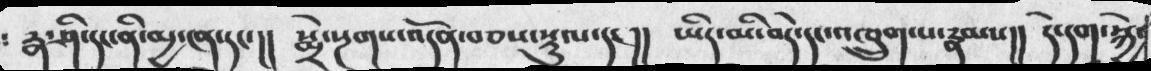༴ རྒ་ཤི་དང་ནི་མྱ་ངན་དང་།།  སྨྲེ་རྔགས་འདོན་བཅས་སྡུལ་དང།།  ཡིད་མི་བདེ་དང་འཁྲུག་པ་རྣམས།། དེ་དག་སྐྱེ་
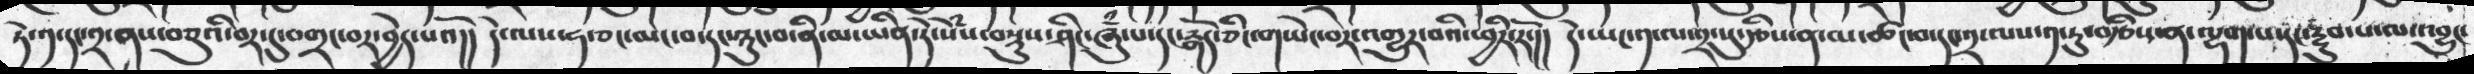ཏེ་༡་དང་༢་ནས་བཅུའི་བར་དུ་བགྲང་བར་བྱེད་པའོ།།   དེ་ལས་ཧ་ཅང་མང་བ་དང་ཉུང་བ་ནི་མ་ཡིན་དེ་སེཾས་བསྡུས་ཤིང་ཞུཾ་པ་དང་རྒོད་ཅིང་གཡེང་བར་འགྱུར་བའི་ཕྱིར་རོ་།།   དེ་ཡང་༡་ལ་༢་དུ་རྩིས་ན་མ་ཚང་བ་དང་༢་ལས་༡་ཏུ་བརྩིས་ན་ལྷག་པ་དང་རྔུབ་པ་ལ་འབྱུང་
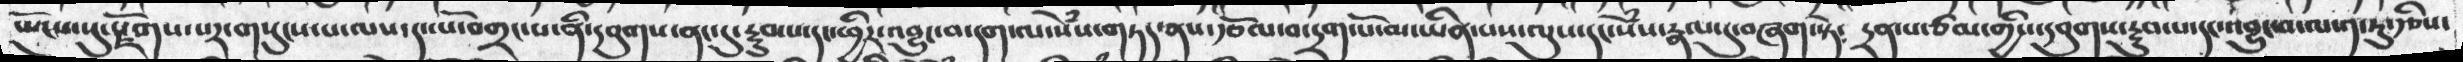ཡོངས་སུ་རྫོགས་པར་གསུངས་པ་ལས་དང་པོ་བགྲང་པ་ནི་དབུགས་ནང་དུ་རྔུབ་པ་དང་ཕྱིར་འབྱུང་བ་དག་ལ་སེཾས་གཏད་ནས་རྩོལ་བ་དྲག་པོ་མ་ཡིན་པས་ལུས་དང་སེཾས་རྣལ་དུ་བཞག་སྟེ༴  དྲན་པ་ཙམ་གྱིས་དབུགས་རྔུབ་པ་དང་འབྱུང་བ་ལ་༡་ཏུ་རྩིས་
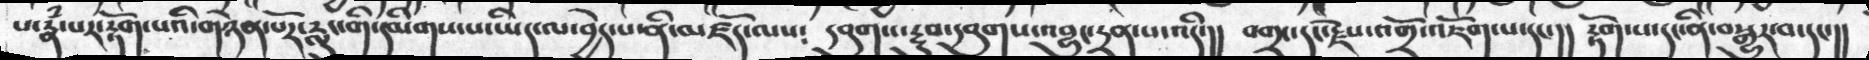པ་རྣཾ་པར་རྟོག་པའི་གཉེན་པོར་རླུང་གི་དམིགས་པ་ཡིད་ལ་བྱེད་པ་ནི་མཛོད་ལས༴  དབུགས་་རྔུབ་དབུགས་འབྱུང་དྲན་པ་འདི་།།  བགྲང་དང་རྫེས་འགྲོ་འཇོག་པ་དང་།།  རྟོག་པ་དང་ནི་བསྒྱུར་བ་དང་།།
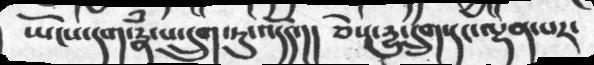ཡོངས་དག་རྣཾ་པ་དྲུག་ཏུ་འདོད་།།   ཅེས་དྱུ་དྲུག་དང་ལྡན་པར་
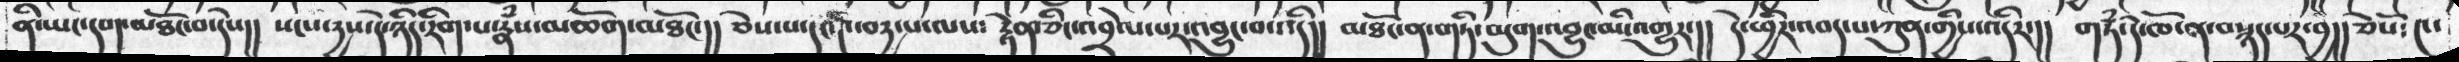ནི་ཡང་དག་མཐོང་བ་དེས།།   སངས་དྱས་དེ་ཉིད་རིག་པ་རྣྃས་མཆོག་མཐོང་།།  ཅེས་པ་དང་༤་བརྱ་པ་ལས༴  རྟེན་ཅིང་འབྲེལ་པར་འབྱུང་བ་འདི།།  མཐོང་ན་གཏི་མུག་འབྱུང་མི་འགྱུར་།།    དེ་ཕྱིར་འབད་པ་ཀུན་གྱིས་འདིར་།།   གཏྃ་དེ་ཁོ་ན་བསྙད་པར་བྱ།།   ཅེསོ༴ ༤་
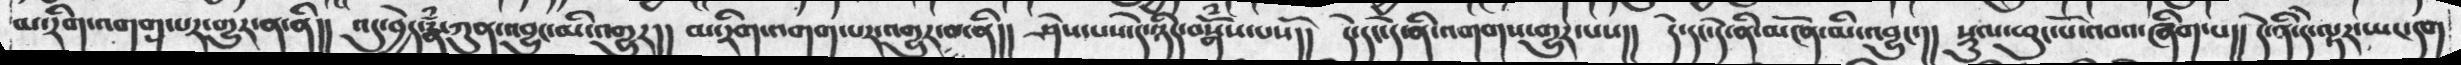མ་རིག་འགག་པར་གྱུར་ན་ནི།།    འདུ་བྱེད་རྣྃ་ཀུན་འབྱུང་མི་འགྱུར།།   མ་རིག་འགག་པར་འགྱུར་བ་ནི།།  ཤེས་པས་དེ་ཉིད་བསྒོྃས་པསོ།།   དེ་དང་དེ་ནི་འགགས་གྱུར་པས།།   དེ་དང་དེ་ནི་མངོན་མི་འབྱུང་།།  སྡུལ་ཕུང་པོ་འབའ་ཞིག་པ།།  དེ་ནི་དེ་ལྟར་ཡང་དག
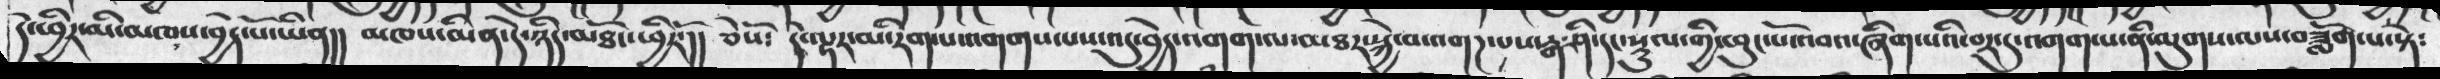དེ་ཕྱིར་མི་མཁས་བྱེད་པོ་ཡིན།།  མཁས་མིན་དེ་ཉིད་མཐོང་ཕྱིརོ་།།   ཅེསོ༴  དེ་ལྟར་མ་རིགས་འགགས་པས་འདུ་བྱེད་འགག་ལ་མཐར་སྐྱེ་བ་འགཌ་པས་རྒ་ཤི་དང་སྡུལ་གྱི་ཕུང་པོ་འབའ་ཞིག་པའི་བར་དུ་འགག་པ་ནི་ལུགས་ལས་བཟློག་པ་སྟེ༴
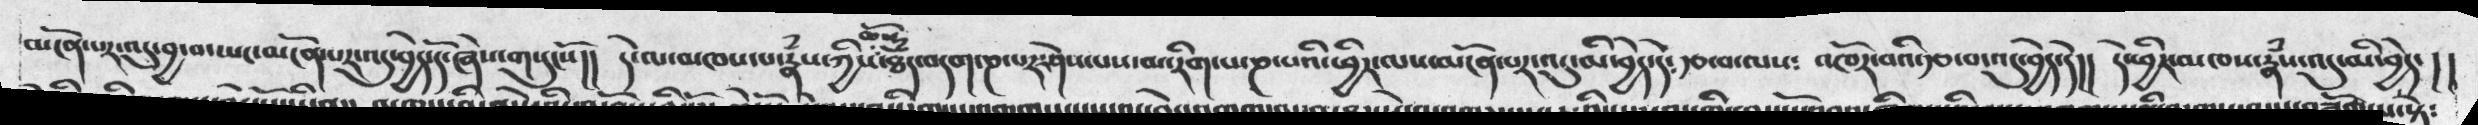མངོན་པར་འདུ་བྱ་བ་ཡང་མངོན་པར་འདུ་བྱེད་དོ་ཞེས་གསུངསོ།།  དེ་ལ་མཁས་པ་རྣཾས་ཀྱིས་ཆོས་ཐཾད་བདག་ཎ་པར་ཤེས་པས་མ་རིག་པ་ཎ་པའི་ཕྱིར་ལས་མངོན་པར་འདུ་བྱེད་མི་བྱེད་དེ༴  རྩ་བ་ལས༴  འཁོར་བའི་རྩ་བ་འདུ་བྱེད་དེ།།   དེ་ཕྱིར་མཁས་རྣཾས་འདུ་མི་བྱེད་
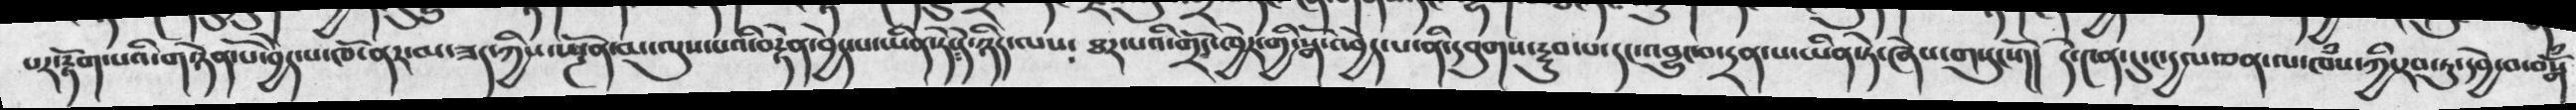པར་རྟོག་པའི་གཉེན་པོ་བྱེད་པ་ཁོ་ནར་མ་ཟད་ཀྱིས་ཡྟོན་མ་ལུས་པའི་བརྟེན་བྱེད་པ་ཡིན་ཏེ་དེ་ཉིད་ལས༴  ཐར་པའི་གྲོང་ཁྱེར་གྱི་སྒོ་འབྱེད་པ་ནི་དབུགས་རྔུབ་པ་དང་འབྱུང་བ་དྲན་པ་ཡིན་ཏེ་ཞེས་གསུངསོ།།  དེ་༤ན་དུ་ང་དྱལ་ཅན་ལ་ཁཾས་ཀྱི་རབ་ཏུ་དབྱེ་བ་བསྒོཾ
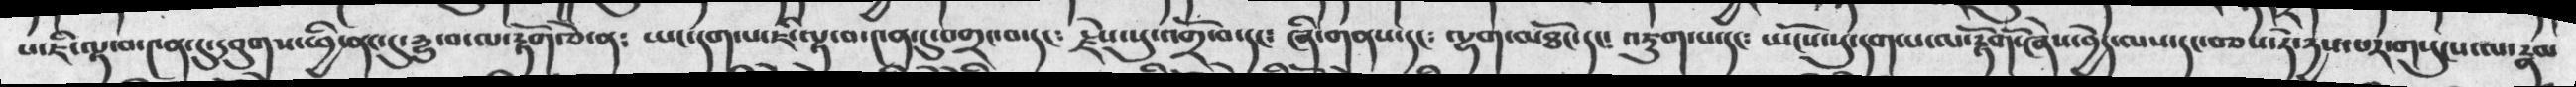པ་ཇི་ལྟ་བ་༤ན་དུ་དབུགས་ཕྱི་ནང་ད་དྱུ་བ་ལ་རྟོག་ཅེ་ན༴  ཡང་དག་པ་ཇི་ལྟ་བ་༤ན་དུ་བགྲང་བ་དང༴ རྗེས་སུ་་འགྲོ་བ་དང༴ ཞི་གནས་དང༴ ལྷག་མཐོང་དང༴ འཇུག་པ་དང༴ ཡོངས་སུ་དག་པ་མ་རྟོགོ་ཞེས་བྱེད་ལས་དང་བཅས་ཏེ་དྱས་པར་གསུངས་ལ་རྣམ
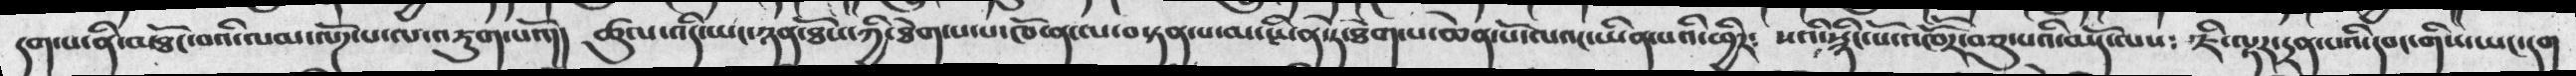དག་པ་ནི་མཐོང་བའི་ལམ་ལོཌ་པ་ལ་འཇུག་པའོ།།  ཚུལ་འདི་ཡང་ཉན་ཐོས་ཀྱི་ཐེག་པ་པ་ཁོ་ན་ལ་བསྟན་པ་མ་ཡིན་ཏེ་ཐེག་པ་ཆེན་པོ་ལའང་ཡིན་པའི་ཕྱིར༴  སའི་སྙིང་པོ་འཁོར་བཅུ་པའི་བསྡོ་ལས༴  ཇི་ལྟར་དྲན་པའི་དབང་གིས་ཡང་དག
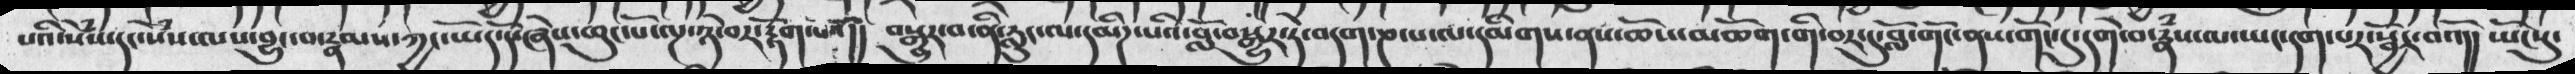པའི་སེཾས་དང་སེཾས་ལས་བྱུང་བ་རྣམས་ཀྱང་ཡོད་དོ་ཞེས་ཆུང་པོ་ལྔ་ཉེ་བར་རྟོག་པའོ།།  བསྒྱུར་བ་ནི་རླུང་ལ་དམིཌ་པའི་བློ་བསྒྱུར་དེ་བདག་ཎ་པ་ལ་དམིགས་ནས་ཆོས་མཆོག་གི་བར་དུ་བློ་གོང་ནད་གོང་དུ་དགེ་བ་རྣཾས་ལ་ཡང་དག་པར་སྦྱོར་བའོ།།  ཡོངསུ་
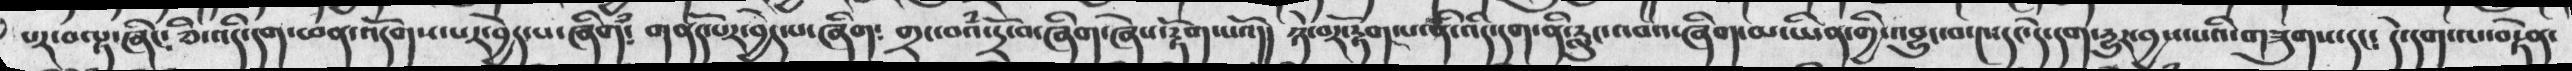པར་བ་ལྟ་ཞིང༴ཅི་འདི་དག་ཕན་འདོགས་པར་བྱེད་པ་ཞིག༴  གནོད་པར་བྱེད་པ་ཞིག༴   གྲང་བའཾ་དྲོ་བ་ཞིག་ཞེས་རྟོགཔའོ།།  ཉེ་བར་རྟོག་པ་ནི་འདི་དག་རླུང་འབའ་ཞིག་མ་ཡིན་གྱི་འབྱུང་བ་༤་དང་དེ་དག་དྱུར་བྱས་པའི་གཟུགས་དང༴   དེ་དག་ལ་བརྟེན་
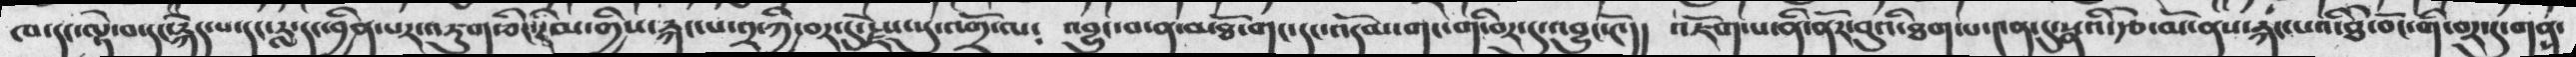ཁ་དང་ལྟེ་བ་དང་རྐེད་པ་དང་རླ་དང་བྱིན་པར་འཇུག་ཅིང་རིམ་གྱིས་རྐང་པ་༢་ཀྱི་བར་དུ་རྗེས་སུ་འགྲོ་ལ༴  འབྱུང་བ་ན་མཐོ་གང་དང་འདོམ་གང་གི་བར་དུ་འབྱུང་ངོ་།།   འཇོག་པ་ནི་ནོར་བུའི་ཐག་པ་༤ན་དུ་སྣའི་རྩེ་མོ་ནས་རྐང་པའི་ཐེ་བོང་གི་བར་དུ་གནས་
